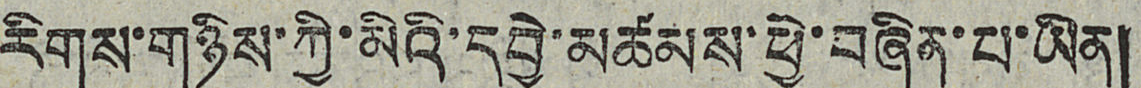རིགས་གཉིས་ཀྱི་མིའི་དབྱེ་མཚམས་ཕྱེ་བཞིན་པ་ཡིན།
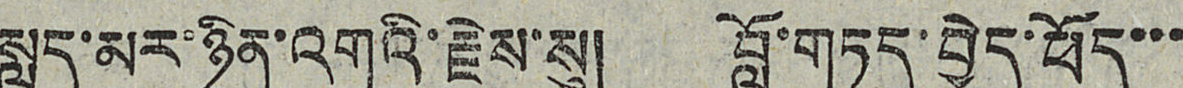སླད་མར་ཉིན་འགའི་རྗེས་སུ། བློ་གཏད་བྱེད་ཕོད་་་
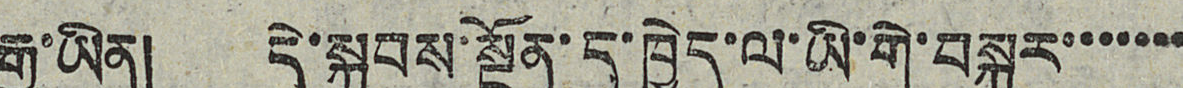རྒྱུ་ཡིན། དེ་སྐབས་སྔོན་དུ་ཁྱེད་ལ་ཡི་གེ་བསྐུར་་་་་་་
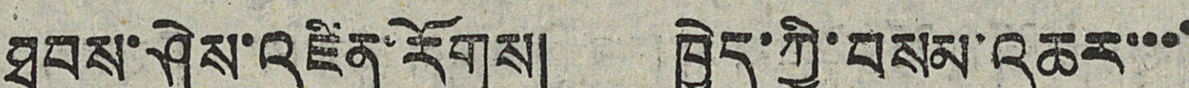ཐབས་ཤེས་འཛིན་རོགས། ཁྱེད་ཀྱི་བསམ་འཆར་་་་
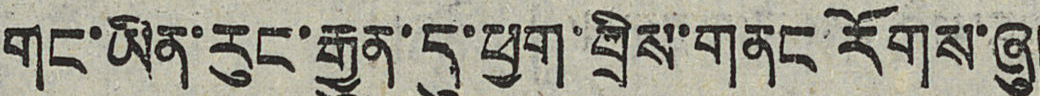གང་ཡིན་རུང་རྒྱུན་དུ་ཕྱག་བྲིས་གནང་རོགས་ཞུ།
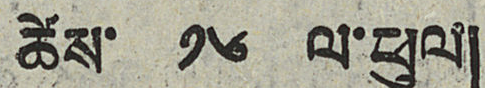ཚེས་ ༡༦ ལ་ཕུལ།
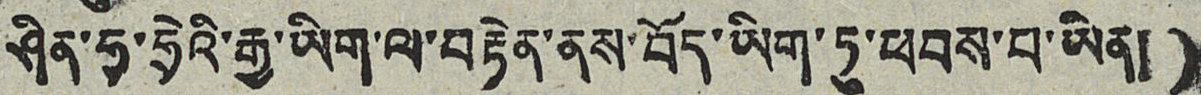ཤིན་ཧྭ་ཧྲེའི་རྒྱུ་ཡིག་ལ་བརྟེན་ནས་བོད་ཡིག་ཏུ་ཕབས་པ་ཡིན།)
